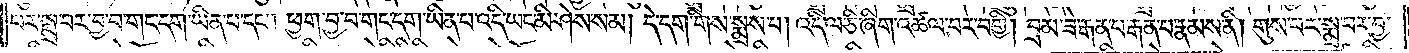པར་སྨྲ་བར་བྱ་བ་གང་དག་ཡིན་པ་དང༌། ཕྱག་བྱ་བ་གང་དག་ཡིན་པ་འདི་ཡང་མི་ཤེས་སམ། དེ་དག་གིས་སྨྲས་པ། འདི་ལ་ཅི་ཞིག་འཚལ་བར་བགྱི། བྲམ་ཟེ་རྒན་པ་རྒན་པ་རྣམས་ནི། གུས་པར་སྨྲ་བར་བྱ་
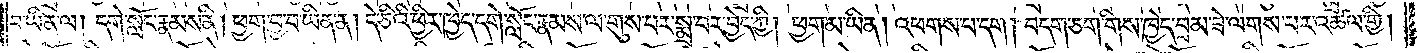བ་ཡིན་ལ། དགེ་སློང་རྣམས་ནི། ཕྱག་བྱ་བ་ཡིན་ན། དེ་ཅིའི་ཕྱིར་ཁྱེད་དགེ་སློང་རྣམས་ལ་གུས་པར་སྨྲ་བར་བྱེད་ཀྱི། ཕྱག་མ་ཡིན། འཕགས་པ་དག །བདག་ཅག་གིས་ཁྱེད་བྲམ་ཟེ་ལགས་པར་འཚལ་གྱི།
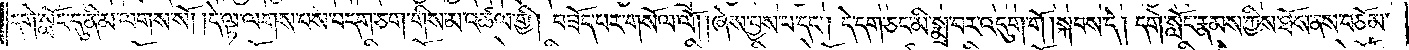དགེ་སློང་དུ་ནི་མ་ལགས་སོ། །དེ་ལྟ་ལགས་པས་བདག་ཅག་གིས་མ་འཚལ་གྱི། བཟོད་པར་གསོལ་ལོ། །ཞེས་བྱས་པ་དང༌། དེ་དག་ཅང་མི་སྨྲ་བར་འདུག་གོ །སྐབས་དེ། དགེ་སློང་རྣམས་ཀྱིས་ཐོས་ནས་བཅོམ་
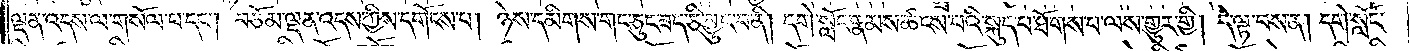ལྡན་འདས་ལ་གསོལ་པ་དང༌། བཅོམ་ལྡན་འདས་ཀྱིས་དགོངས་པ། ཉེས་དམིགས་གང་ཅུང་ཟད་ཅི་བྱུང་བ་ནི། དགེ་སློང་རྣམས་ཚངས་པའི་སྐུད་པ་ཐོགས་པ་ལས་གྱུར་གྱི། དེ་ལྟ་བས་ན། དགེ་སློང་
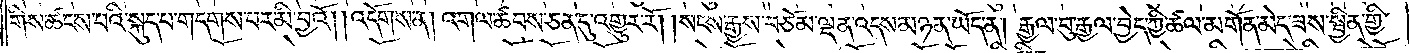གིས་ཚངས་པའི་སྐུད་པ་གདགས་པར་མི་བྱའོ། །འདོགས་ན། འགལ་ཚབས་ཅན་དུ་འགྱུར་རོ། །སངས་རྒྱས་བཅོམ་ལྡན་འདས་མཉན་ཡོད་ན། རྒྱལ་བུ་རྒྱལ་བྱེད་ཀྱི་ཚལ་མགོན་མེད་ཟས་སྦྱིན་གྱི་
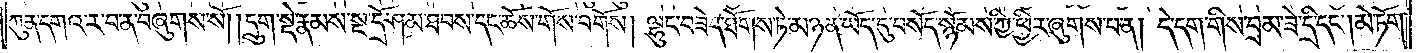ཀུན་དགའ་ར་བ་ན་བཞུགས་སོ། །དྲུག་སྡེ་རྣམས་སྔ་དྲོ་ཤམ་ཐབས་དང་ཆོས་གོས་བགོས། ལྷུང་བཟེད་ཐོགས་ཏེ་མཉན་ཡོད་དུ་བསོད་སྙོམས་ཀྱི་ཕྱིར་ཞུགས་པ་ན། དེ་དག་གིས་བྲམ་ཟེ་དྲི་དང༌། མེ་ཏོག་
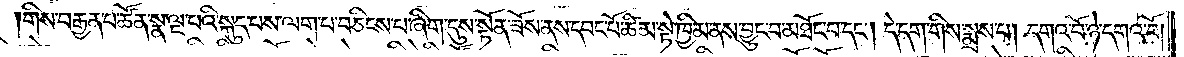གིས་བརྒྱན་པ་ཚོན་སྣ་ལྔ་པའི་སྐུད་པས་ལག་པ་བཅིངས་པ་ཞིག་དུས་སྟོན་ཟོས་ནས་དབང་པོ་ཚིམ་སྟེ་ཁྱིམ་ནས་བྱུང་བ་མཐོང་བ་དང༌། དེ་དག་གིས་སྨྲས་པ། དགའ་བོ་ཉེ་དགའ་བོ།
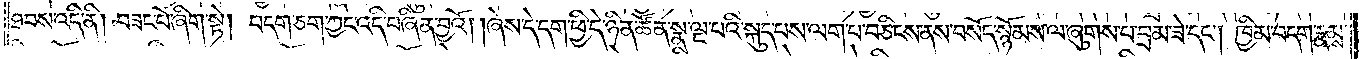ཐབས་འདི་ནི། བཟང་པོ་ཞིག་སྟེ། བདག་ཅག་ཀྱང་འདི་བཞིན་བྱའོ། །ཞེས་དེ་དག་ཕྱི་དེ་ཉིན་ཚོན་སྣ་ལྔ་པའི་སྐུད་པས་ལག་པ་བཅིངས་ནས་བསོད་སྙོམས་ལ་ཞུགས་པ་བྲམ་ཟེ་དང༌། ཁྱིམ་བདག་རྣམས་
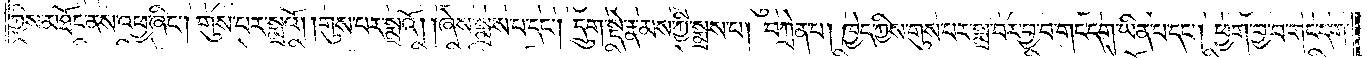ཀྱིས་མཐོང་ནས་འཕྱ་ཞིང༌། གུས་པར་སྨྲའོ། །གུས་པར་སྨྲའོ། །ཞེས་སྨྲས་པ་དང༌། དྲུག་སྡེ་རྣམས་ཀྱི་སྨྲས་པ། བཀྲེན་པ། ཁྱེད་ཀྱིས་གུས་པར་སྨྲ་བར་བྱ་བ་གང་དག་ཡིན་པ་དང༌། ཕྱག་བྱ་བ་གང་དག་
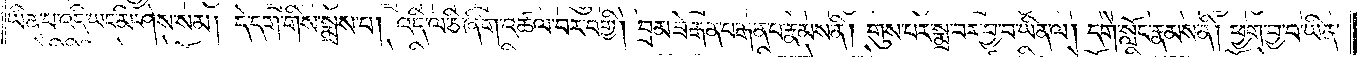ཡིན་པ་འདི་ཡང་མི་ཤེས་སམ། དེ་དག་གིས་སྨྲས་པ། འདི་ལ་ཅི་ཞིག་འཚལ་བར་བགྱི། བྲམ་ཟེ་རྒན་པ་རྒན་པ་རྣམས་ནི། གུས་པར་སྨྲ་བར་བྱ་བ་ཡིན་ལ། དགེ་སློང་རྣམས་ནི། ཕྱག་བྱ་བ་ཡིན་
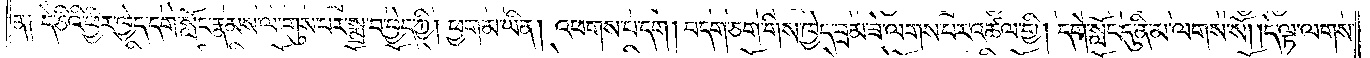ན། དེ་ཅིའི་ཕྱིར་ཁྱེད་དགེ་སློང་རྣམས་ལ་གུས་པར་སྨྲ་བ་བྱེད་ཀྱི། ཕྱག་མ་ཡིན། འཕགས་པ་དག །བདག་ཅག་གིས་ཁྱེད་བྲམ་ཟེ་ལགས་པར་འཚལ་གྱི། དགེ་སློང་དུ་ནི་མ་ལགས་སོ། །དེ་ལྟ་ལགས་
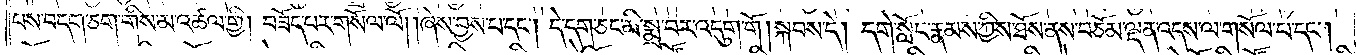པས་བདག་ཅག་གིས་མ་འཚལ་གྱི། བཟོད་པར་གསོལ་ལོ། །ཞེས་བྱས་པ་དང༌། དེ་དག་ཅང་མི་སྨྲ་བར་འདུག་གོ། སྐབས་དེ། དགེ་སློང་རྣམས་ཀྱིས་ཐོས་ནས་བཅོམ་ལྡན་འདས་ལ་གསོལ་པ་དང༌།
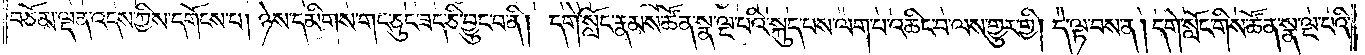བཅོམ་ལྡན་འདས་ཀྱིས་དགོངས་པ། ཉེས་དམིགས་གང་ཅུང་ཟད་ཅི་བྱུང་བ་ནི། དགེ་སློང་རྣམས་ཚོན་སྣ་ལྔ་པའི་སྐུད་པས་ལག་པ་འཆིང་བ་ལས་གྱུར་གྱི། དེ་ལྟ་བས་ན། དགེ་སློང་གིས་ཚོན་སྣ་ལྔ་པའི་
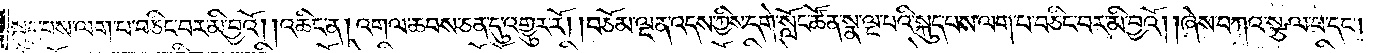སྐུད་པས་ལག་པ་བཅིང་བར་མི་བྱའོ། །འཆིང་ན། འགལ་ཆབས་ཅན་དུ་འགྱུར་རོ། །བཅོམ་ལྡན་འདས་ཀྱིས་དགེ་སློང་ཚོན་སྣ་ལྔ་པའི་སྐུད་པས་ལག་པ་བཅིང་བར་མི་བྱའོ། །ཞེས་བཀའ་སྩལ་པ་དང༌།
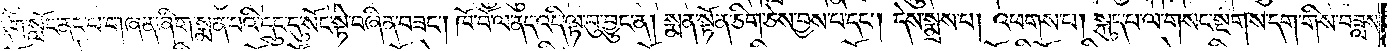དགེ་སློང་ནད་པ་གཞན་ཞིག་སྨན་པའི་དྲུང་དུ་སོང་སྟེ་བཞིན་བཟང༌། ཁོ་བོ་ལ་ནད་འདི་ལྟ་བུ་བྱུང་ན། སྨན་སྟོན་ཅིག་ཅེས་བྱས་པ་དང༌། དེས་སྨྲས་པ། འཕགས་པ། སྐུད་པ་ལ་གསང་སྔགས་དག་གིས་བཟླས་
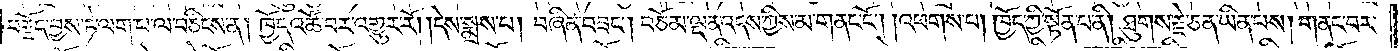བརྗོད་བྱས་ཏེ་ལག་པ་ལ་བཅིངས་ན། ཁྱོད་འཚོ་བར་འགྱུར་རོ། །དེས་སྨྲས་པ། བཞིན་བཟང༌། བཅོམ་ལྡན་འདས་ཀྱིས་མ་གནང་ངོ༌། །འཕགས་པ། ཁྱོད་ཀྱི་སྟོན་པ་ནི། ཐུགས་རྗེ་ཅན་ཡིན་པས། གནང་བར་
